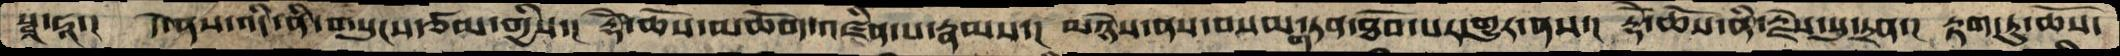སྭ་ཧཱ་།  དེ་ནས་འདི་ནི་གསུངས་ཙམ་གྱིས་། རྡོེ་ཆོས་མཆོག་འཛིན་པ་རྣམས་། མཉེས་ནས་བསམ་གཏན་ཐོབ་པར་གྱུར་ནས་། རྡོེ་ཆོས་ནི་རྗེས་སུ་དྲན་། རྟག་ཏུ་ཆོས་
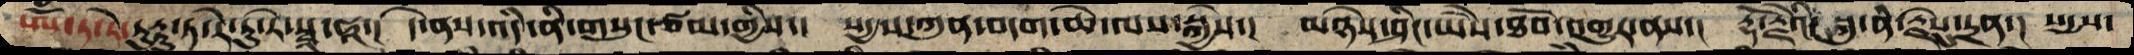ཨོཾ་ཏ་རེ་ཏུཏྟུ་ཏ་རེ་ཏུ་རེ་སྭཱ་ཧཱ་།  དེ་ནས་འདི་ནི་གསུང་ཙམ་གྱིས་། སདྱས་ཀུན་བདག་ཆེ་ལས་སྐྱེས་། མཉེས་ཤིང་ཡཻས་ཐོབ་འགྱུར་ནས་། རྡོ་རྗེའི་སྐུ་ནི་རྗེསུ་དྲན་། སདྱས་
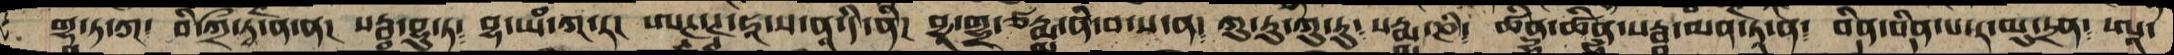གྷ་ཏ་ཀ་ བི་ཀྲྀ་ཏྭ་ནོ་ན། སརྦ་བྷུ་ཏ་  བྷ་ཡཾ་ཀ་ར། ཨཊྚ་ཊྚ་ཧཱ་ས་ནཱ་དི་ནི། བྱ་གྷྲ་ཙརྨྨ་ནི་བ་ས་ན། ཀུ་རུ་ཀུ་རུ་ སརྨ་ཎི་ ཚིནྡྷི་ཚིནྡྷི་སརྦཱ་མན་ཏཱོ་ན།  བྡིན་བྡིན་པ་ར་མུ་ཏྲན་ ཨཱ་
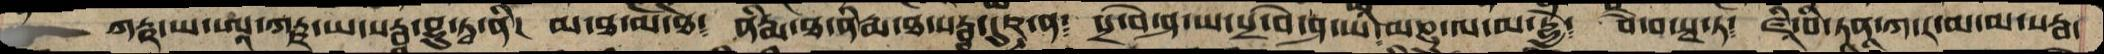ཀརྵ་ཡ་ཨཱ་ཀརྵ་ཡ་སརྦ་བྷུ་ཏྭ་ནི། མ་ཐ་མོ་ཐེ༴ ནིརྨ་ཐ་ནིརྨ་ཐ་སརྦ་དུཥྚ་ན༴ པྲ་བེ་ཤ་ཡ་པྲ་བེ་ཤ་ཡི་མཎྜ་ལ་མ་དྷྱེ་  བཻ་བ་སྭ་ཏ་  ཛཱི་བི་ཏན་ཀ་ར་མ་མ་སརྦ་
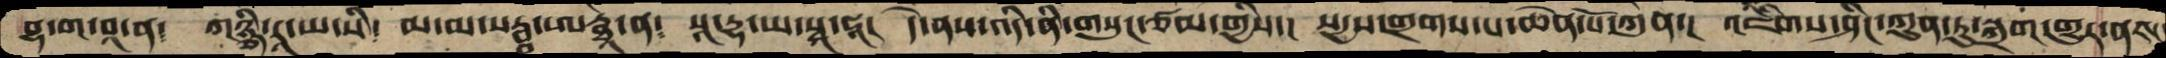བྷ་ག་བཱ་ན་  ཀཉྩི་རཱ་ཡ་སི་ མ་མ་སརྦ་ཨརྠཱ་ན་ སཱ་དྷ་ཡ་སྭ་ཧཱ། དེ་ནས་འདི་ནི་གསུང་ཙམ་གྱིས་། སདྱས་གྲགས་པ་ཆེན་པོ་ཀུན་། འཇིགས་ཤིང་ཀུན་ཏུ་སྐྲག་གྱུར་ནས་
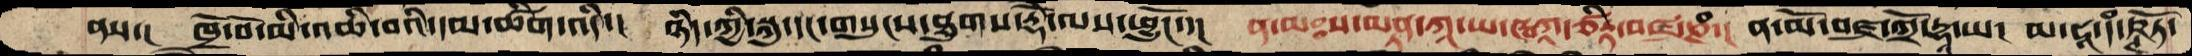ནས་།  ཁྲོ་བོ་མི་འཆི་བའི་དམ་ཚིག་འདི་། ཉིད་ཀྱི་སྐུ་དང་གསུངས་ཐུགས་རྡོེ་ལས་ཕྱུངོ་་།  ན་མཿས་མནྟ་ཀཱ་ཡ་ཝཀཱ་ཙིཏྟ་བཛྲ་ཎཾ་། ན་མོ་བཛྲ་ཀྲོ་དྷ་ཱ་ཡ་  མ་ཧཱ་དཾ་ཥྚོཏ་
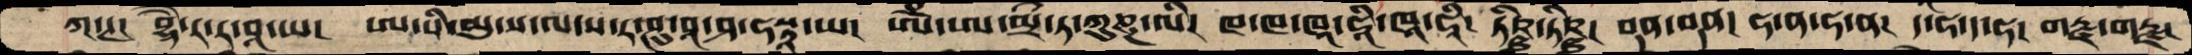ཀ་ཊ། བྷཻ་ར་ར་བཱ་ཡ། ཨ་པི་མུ་ས་ལ་ས་ར་ཤུ་བཱ་ཤ་ཧསྟཱ་ཡ།  ཨོཾ་ཨ་མྲི་ཏ་ཀུཎྜ་ལི། ཁ་ཁ་ཁཱ་ཧཱི་ཁཱ་ཧཱི། ཏིཥྛ་ཏིཥྛ། བྡན་བྡན། ཧ་ན་ཧ་ན། ད་ཧ་ད་ཧ། གརྫ་གརྫ།
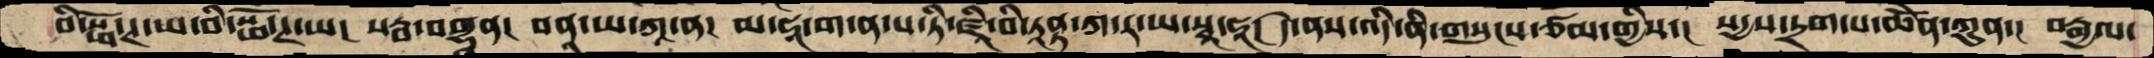བི་སྥོ་ཊ་ཡ་བི་སྤོ་ཊ་ཡ། སརྦ་བགྷན། བནཱ་ཡ་ཀཱ་ན། མ་ཧཱ་ག་ན་པ་ཏི་ཛཱི་བི་ཏཱནྟ་ཀ་ར་ཡ་སྭ་ཧཱ། དེ་ནས་འདི་ནི་གསུངས་ཙམ་གྱིས་། སདྱས་དྲག་པ་ཆེནོ་ཀུན་། བརྒྱལ་
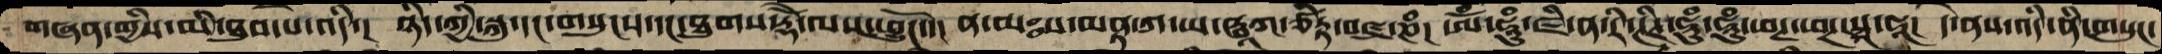གཞན་གྱིས་མི་ཐུབ་པ་འདི་། ཉིད་ཀྱི་སྐུ་དང་གསུངས་དང་ཐུགས་རྡོེ་ལས་ཕྱུངོ་་། ན་མཿསནྟ་ཀ་ཡ་ཝཱཀ་ཙིཏྟ་བཛྲ་ཎཾ། ཨོཾ་ཧཱུཾ་ཛི་ན་རི་ཊིཊ་ཧཱུཾ་ཧཱུཾ་ཕཊ་ཕཊ་སྭ་ཧཱ། དེ་ནས་འདི་ནི་གསུང་
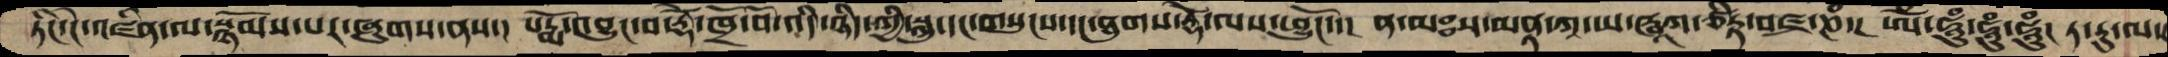ཏིང་ངེ་འཛིན་ལ་སྙོམས་པར་ཞུགས་ནས་། པདྨོ་འབྱུང་བ་རྡོེ་ཁྲོ་བོ་འདི་ཉིད་ཀྱི་སྐུ་དང་གསུངས་དང་ཐུགས་རྡོེ་ལས་ཕྱུངོ་་།  ན་མཿས་མནྟ་ཀཱ་ཡ་ཝཱཀ་ཙིཏྟ་བཛྲ་ཎཾ་།  ཨོཾ་ཧཱུཾ་ཧཱུཾ་ཧཱུཾ། ཏ་རུ་ལ་
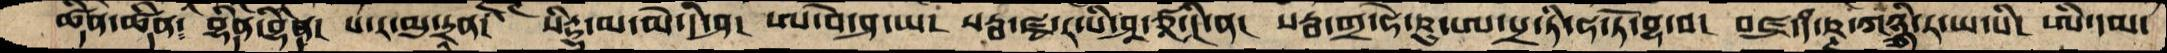ཚྡིན་ཚྡིན་ བྷྡིན་བྷྡིན་ པ་ར་མུ་ཏྲན། སིཏྡྷ་མ་མེ་དི་ཤ་ ཨ་བེ་ཤ་ཡ། སརྦ་ཛྭ་ར་པི་ཤཱ་ཙཱ་དཱི་ན་ སརྦ་གྲ་ཧེ་ཥུ་ཨ་པྲ་ཏི་ཧ་ཏོ་བྷ་བ། བཛྲ་དཾ་ཥྚ་ཀཉྩི་ཏ་ཡ་སི། ཨི་དམ་
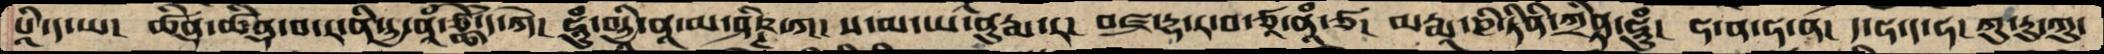པཱི་ད་ཡ་  ཚིནྡ་ཚིནྡ་བར་ནི་ཏྱ་བཱཾ་ཙྪེ་ཀོ་།  ཧཱུྃ་བརྱཱིནཱ་མ་ཤིཥྚ་ཀ་ ས་མ་ཡ་ནུརྨ་ར།  བཛྲ་དྷ་ར་བ་ཙཱ་ནཱཾ་ཙ་ མརྨཱ་ཎི་ཏིནི་ཀྲིནྟ་ཧཱུཾ་  ཧ་ན་ཧ་ན་  ད་ཧ་ད་ཧ་  ཀུ་རུ་ཀུ་
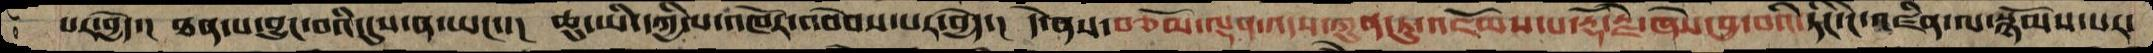པར་བྱེད་།  ཐན་པ་བྱུང་བའི་དུས་ན་ཡང་་།  ཆུ་ཡི་དཀྱིལ་འཁོར་འབེབས་པར་བྱེད་།  དེ་ནས་བཅོམ་ལྡན་འདས་ཀུན་ཏུ་འཇོམས་པ་རྡོ་རྗེ་ཞེས་བྱ་བའི་ཏིང་ངེ་འཛིན་ལ་སྙོམས་པར་
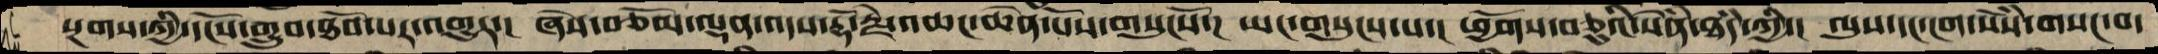སྔགས་ཀྱི་དངོས་གྲུབ་ཐོབ་པར་འགྱུར་།  ཞེས་བཅོམ་ལྡན་འདས་རྡོ་རྗེ་འཆང་ཆེན་པོས་གསུངསོ་།  ཡང་གསུངས་པ་།  ཕྱོགས་བཅུའི་སེཾན་ཐཾད་ཀྱི་།  ལུས་དང་ངག་སེཾས་གསང་བ་
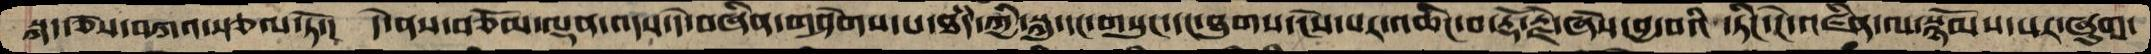སྐད་ཅེས་བཀའ་སྩལ་ཏེ་།  དེ་ནས་མཅོམ་ལྡན་འདས་དེ་བཞིན་གཤེགས་པ་ཐཾད་ཀྱི་སྐུ་དང་གསུང་དང་ཐུགས་ངེས་པར་འཆིང་བ་རྡོ་རྗེ་ཞེས་བྱ་བའི་ཏིང་ངེ་འཛིན་ལ་སྙོམས་པར་ཞུགས་
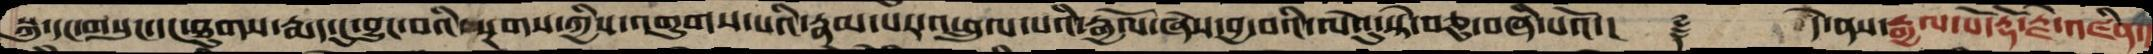སྐུ་དང་གསུང་དང་ཐུགས་རྨད་དུ་བྱུང་བའི་སྔགས་ཀྱིས་འགུགས་པའི་རྣམ་པར་འཕྲུལ་པའི་རྒྱལོ་ཞེས་བྱ་བའི་ལེའུ་སྟེ་བཅུ་བཞི་པའོ་།  ༈  དེ་ནས་རྒྱལ་པོ་རྡོ་རྗེ་འཛིན་
